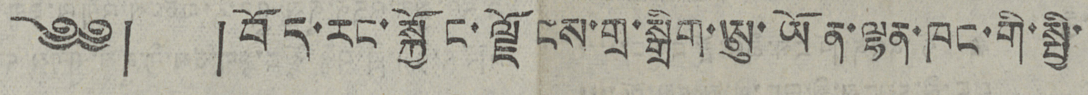༄༅། །བོད་རང་སྐྱོང་ལྗོངས་གྲ་སྒྲིག་ཨུ་ཡོན་ལྷན་ཁང་གི་སྤྱི་
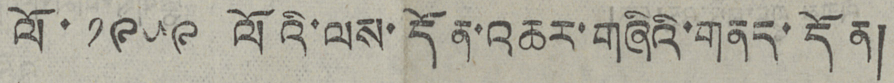ལོ་ ༡༩༥༩ ལོའི་ལས་དོན་འཆར་གཞིའི་གནད་དོན།
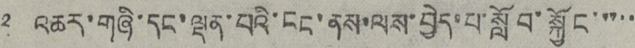འཆར་གཞི་དང་ལྡན་པའི་ངང་ནས་ལས་བྱེད་པ་སློབ་སྐྱོང་་་་་
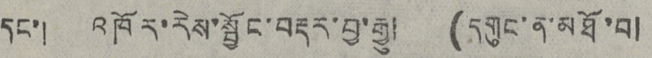དང་། འཁོར་རེས་སྦྱོང་བརྡར་བྱ་རྒྱུ། (དགུང་ན་མཐོ་བ།
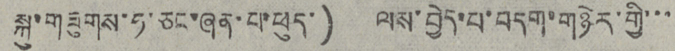སྐུ་གཟུགས་ཧ་ཅང་ཞན་པ་ཕུད་ ) ལས་བྱེད་པ་བདག་གཉེར་གྱི་་་
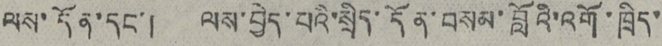ལས་དོན་དང་། ལས་བྱེད་པའི་སྲིད་དོན་བསམ་བློའི་འགོ་ཁྲིད་
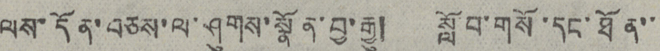ལས་དོན་བཅས་ལ་ཤུགས་སྣོན་བྱ་རྒྱུ། སློབ་གསོ་དང་ཐོན་་་
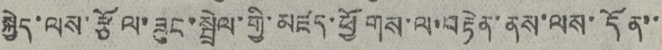སྐྱེད་ལས་རྩོལ་ཟུང་སྦྲེལ་གྱི་མཛད་ཕྱོགས་ལ་བརྟེན་ནས་ལས་དོན་་་
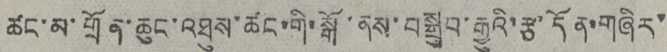ཚང་མ་གྲོན་ཆུང་འཐུས་ཚང་གི་སྒོ་ནས་བསྒྲུབ་རྒྱུའི་རྩ་དོན་གཞིར་
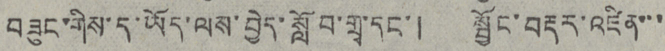བཟུང་གིས་ད་ཡོད་ལས་བྱེད་སློབ་གྲྭ་དང་། སྦྱོང་བརྡར་འཛིན་་་་
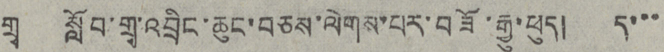ཀྲུ སློབ་གྲྭ་འབྲིང་ཆུང་བཅས་ལེགས་པར་བཟོ་རྒྱུ་ཕུད། ད་་་
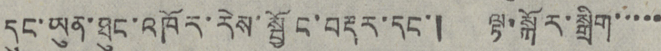དང་ཡུན་ཐུང་འཁོར་རེས་སྦྱོང་བརྡར་དང་། ལྟ་སྐོར་སྒྲིག་་་་་་
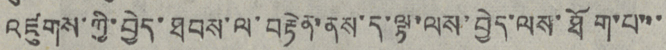འཛུགས་ཀྱི་བྱེད་ཐབས་ལ་བརྟེན་ནས་ད་ལྟ་ལས་བྱེད་ལས་ཐོག་པ་་་་
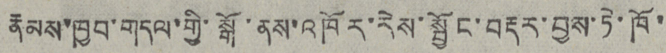རྣམས་ཁྱབ་གདལ་གྱི་སྒོ་ནས་འཁོར་རེས་སྦྱོང་བརྡར་བྱས་ཏེ་ཁོ་་
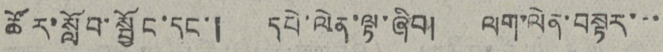ཚོར་སློབ་སྦྱོང་དང་། དཔེ་ལེན་ལྟ་ཞིབ། ལག་ལེན་བསྟར་་་
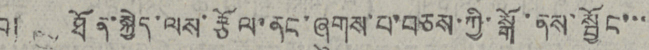བ། ཐོན་སྐྱེད་ལས་རྩོལ་ནང་ཞུགས་པ་བཅས་ཀྱི་སྒོ་ནས་སྦྱོང་་་་
